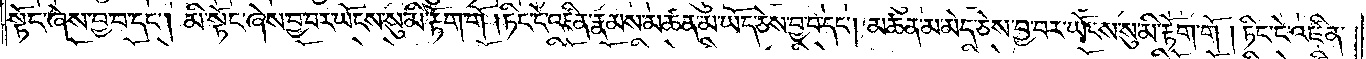སྟོང་ཞེས་བྱ་བ་དང༌། མི་སྟོང་ཞེས་བྱ་བར་ཡོངས་སུ་མི་རྟོག་གོ །ཏིང་ངེ་འཛིན་རྣམས་མཚན་མ་ཡོད་ཅེས་བྱ་བ་དང༌། མཚན་མ་མེད་ཅེས་བྱ་བར་ཡོངས་སུ་མི་རྟོག་གོ །ཏིང་ངེ་འཛིན་
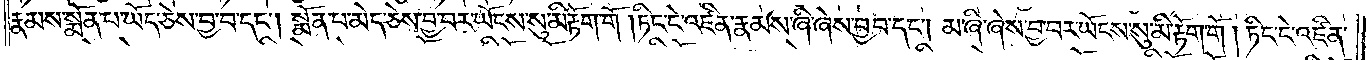རྣམས་སྨོན་པ་ཡོད་ཅེས་བྱ་བ་དང༌། སྨོན་པ་མེད་ཅེས་བྱ་བར་ཡོངས་སུ་མི་རྟོག་གོ །ཏིང་ངེ་འཛིན་རྣམས་ཞི་ཞེས་བྱ་བ་དང༌། མ་ཞི་ཞེས་བྱ་བར་ཡོངས་སུ་མི་རྟོག་གོ །ཏིང་ངེ་འཛིན་
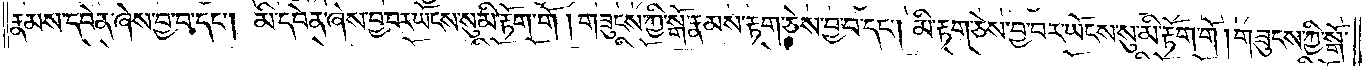རྣམས་དབེན་ཞེས་བྱ་བ་དང༌། མི་དབེན་ཞེས་བྱ་བར་ཡོངས་སུ་མི་རྟོག་གོ །གཟུངས་ཀྱི་སྒོ་རྣམས་རྟག་ཅེས་བྱ་བ་དང༌། མི་རྟག་ཅེས་བྱ་བར་ཡོངས་སུ་མི་རྟོག་གོ །གཟུངས་ཀྱི་སྒོ་
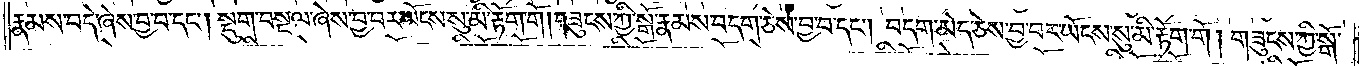རྣམས་བདེ་ཞེས་བྱ་བ་དང༌། སྡུག་བསྔལ་ཞེས་བྱ་བར་ཡོངས་སུ་མི་རྟོག་གོ །གཟུངས་ཀྱི་སྒོ་རྣམས་བདག་ཅེས་བྱ་བ་དང༌། བདག་མེད་ཅེས་བྱ་བར་ཡོངས་སུ་མི་རྟོག་གོ །གཟུངས་ཀྱི་སྒོ་
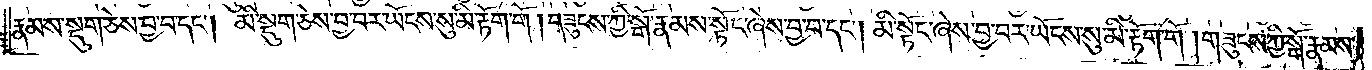རྣམས་སྡུག་ཅེས་བྱ་བ་དང༌། མི་སྡུག་ཅེས་བྱ་བར་ཡོངས་སུ་མི་རྟོག་གོ །གཟུངས་ཀྱི་སྒོ་རྣམས་སྟོང་ཞེས་བྱ་བ་དང༌། མི་སྟོང་ཞེས་བྱ་བར་ཡོངས་སུ་མི་རྟོག་གོ །གཟུངས་ཀྱི་སྒོ་རྣམས་
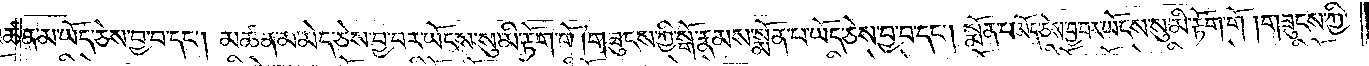མཚན་མ་ཡོད་ཅེས་བྱ་བ་དང༌། མཚན་མ་མེད་ཅེས་བྱ་བར་ཡོངས་སུ་མི་རྟོག་གོ །གཟུངས་ཀྱི་སྒོ་རྣམས་སྨོན་པ་ཡོད་ཅེས་བྱ་བ་དང༌། སྨོན་པ་མེད་ཅེས་བྱ་བར་ཡོངས་སུ་མི་རྟོག་གོ །གཟུངས་ཀྱི་
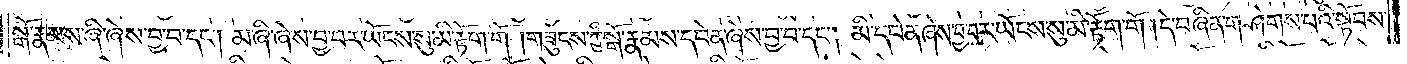སྒོ་རྣམས་ཞི་ཞེས་བྱ་བ་དང༌། མ་ཞི་ཞེས་བྱ་བར་ཡོངས་སུ་མི་རྟོག་གོ །གཟུངས་ཀྱི་སྒོ་རྣམས་དབེན་ཞེས་བྱ་བ་དང༌། མི་དབེན་ཞེས་བྱ་བར་ཡོངས་སུ་མི་རྟོག་གོ །དེ་བཞིན་གཤེགས་པའི་སྟོབས་
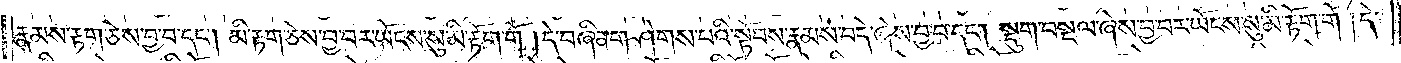རྣམས་རྟག་ཅེས་བྱ་བ་དང༌། མི་རྟག་ཅེས་བྱ་བར་ཡོངས་སུ་མི་རྟོག་གོ །དེ་བཞིན་གཤེགས་པའི་སྟོབས་རྣམས་བདེ་ཞེས་བྱ་བ་དང༌། སྡུག་བསྔལ་ཞེས་བྱ་བར་ཡོངས་སུ་མི་རྟོག་གོ །དེ་
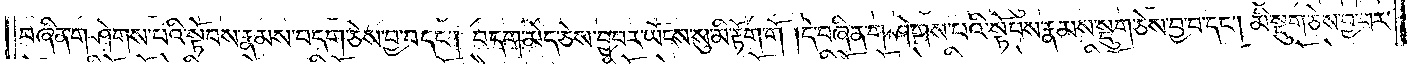བཞིན་གཤེགས་པའི་སྟོབས་རྣམས་བདག་ཅེས་བྱ་བ་དང༌། བདག་མེད་ཅེས་བྱ་བར་ཡོངས་སུ་མི་རྟོག་གོ །དེ་བཞིན་གཤེགས་པའི་སྟོབས་རྣམས་སྡུག་ཅེས་བྱ་བ་དང༌། མི་སྡུག་ཅེས་བྱ་བར་
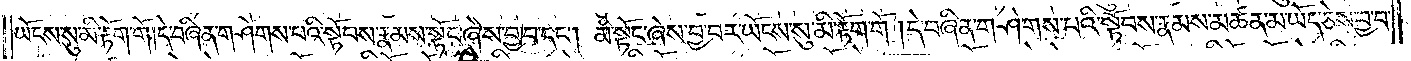ཡོངས་སུ་མི་རྟོག་གོ །དེ་བཞིན་གཤེགས་པའི་སྟོབས་རྣམས་སྟོང་ཞེས་བྱ་བ་དང༌། མི་སྟོང་ཞེས་བྱ་བར་ཡོངས་སུ་མི་རྟོག་གོ །དེ་བཞིན་གཤེགས་པའི་སྟོབས་རྣམས་མཚན་མ་ཡོད་ཅེས་བྱ་བ་
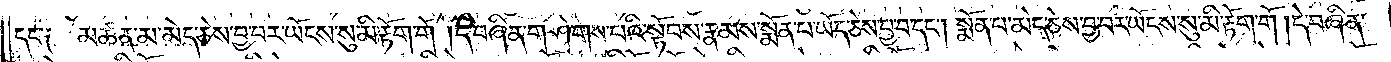དང༌༑ མཚན་མ་མེད་ཅེས་བྱ་བར་ཡོངས་སུ་མི་རྟོག་གོ །དེ་བཞིན་གཤེགས་པའི་སྟོབས་རྣམས་སྨོན་པ་ཡོད་ཅེས་བྱ་བ་དང༌། སྨོན་པ་མེད་ཅེས་བྱ་བར་ཡོངས་སུ་མི་རྟོག་གོ །དེ་བཞིན་
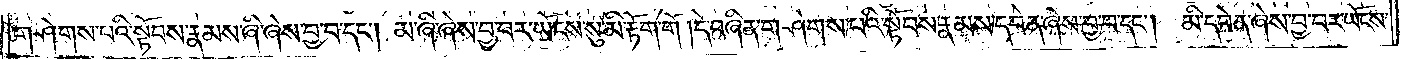གཤེགས་པའི་སྟོབས་རྣམས་ཞི་ཞེས་བྱ་བ་དང༌། མ་ཞི་ཞེས་བྱ་བར་ཡོངས་སུ་མི་རྟོག་གོ །དེ་བཞིན་གཤེགས་པའི་སྟོབས་རྣམས་དབེན་ཞེས་བྱ་བ་དང༌། མི་དབེན་ཞེས་བྱ་བར་ཡོངས་
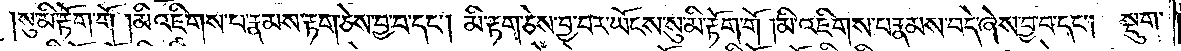སུ་མི་རྟོག་གོ །མི་འཇིགས་པ་རྣམས་རྟག་ཅེས་བྱ་བ་དང༌། མི་རྟག་ཅེས་བྱ་བར་ཡོངས་སུ་མི་རྟོག་གོ །མི་འཇིགས་པ་རྣམས་བདེ་ཞེས་བྱ་བ་དང༌། སྡུག་
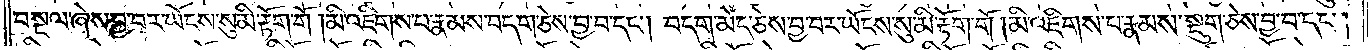བསྔལ་ཞེས་བྱ་བར་ཡོངས་སུ་མི་རྟག་གོ །མི་འཇིགས་པ་རྣམས་བདག་ཅེས་བྱ་བ་དང༌། བདག་མེད་ཅེས་བྱ་བར་ཡོངས་སུ་མི་རྟོག་གོ །མི་འཇིགས་པ་རྣམས་སྡུག་ཅེས་བྱ་བ་དང༌།
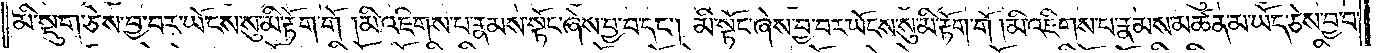མི་སྡུག་ཅེས་བྱ་བར་ཡོངས་སུ་མི་རྟོག་གོ །མི་འཇིགས་པ་རྣམས་སྟོང་ཞེས་བྱ་བ་དང༌། མི་སྟོང་ཞེས་བྱ་བར་ཡོངས་སུ་མི་རྟོག་གོ །མི་འཇིགས་པ་རྣམས་མཚན་མ་ཡོད་ཅེས་བྱ་བ་
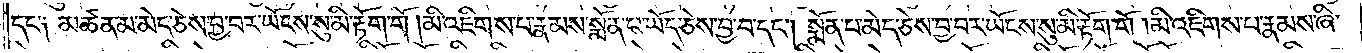དང༌༑ མཚན་མ་མེད་ཅེས་བྱ་བར་ཡོངས་སུ་མི་རྟོག་གོ །མི་འཇིགས་པ་རྣམས་སྨོན་པ་ཡོད་ཅེས་བྱ་བ་དང༌། སྨོན་པ་མེད་ཅེས་བྱ་བར་ཡོངས་སུ་མི་རྟོག་གོ།མི་འཇིགས་པ་རྣམས་ཞི་
